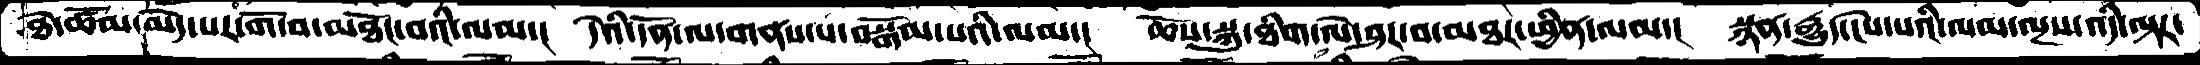ཐེ་ཚོམ་མེད་པར་གོ་བ་མཐོང་བའི་ལམ་།  དེའི་དོན་ལ་གནས་པ་བསྒོམ་པའི་ལམ་།  ཆོས་སྐུ་ཐིག་ལེ་ཤར་བ་མཐར་ཕྱིན་ལམ་།  སྙན་རྒྱུད་ངེས་པའི་ལམ་ལྔས་འདི་ལྟར་
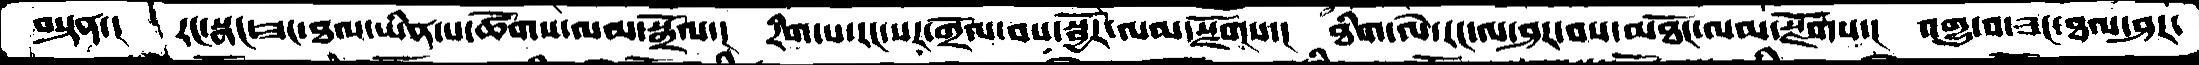བསྟན་།  རང་སྣང་ཟང་ཐལ་ཡིན་པ་ཚོགས་ལམ་སྒྲོལ་།  རིག་པ་རང་སར་གྲོལ་བས་སྦྱོར་ལམ་སྫོགས་།  ཐིག་ལེ་རང་ལ་ཤར་བས་མཐོང་ལམ་སྫོགས་།  འགྱུ་བ་ཟང་ཐལ་ཤར་
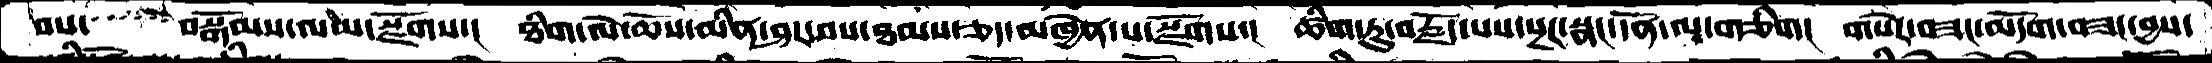བས་    བསྒོམས་ལམ་སྫོགས་།  ཐིག་ལེ་ཆོས་མིན་ཤར་བས་ཐམས་ཅད་མཁྱེན་པ་སྫོགས་།  ཚིག་ཏུ་བརྗོད་པས་སྔཌ་སྣང་དོན་ལ་གཅིག།  གསེར་བཟང་མདོག་བཟང་བྱས་
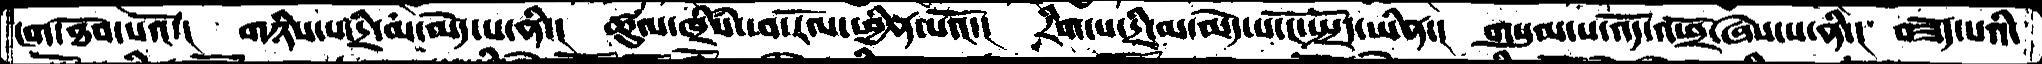ངག་ཐོབ་པའོ་།  གཉིས་པ་དྲི་མ་མེད་པ་ནི་།  ཚུལ་ཁྲིཾས་ཕ་རོལ་ཕྱིན་པའོ་།  རིག་པ་དྲི་མ་མེད་པ་ངོ་སྤྲོད་ཡིན་།  གསུམ་པ་འོད་འཕྲོ་ཞེས་པ་ནི་།  བཟོད་པའི་
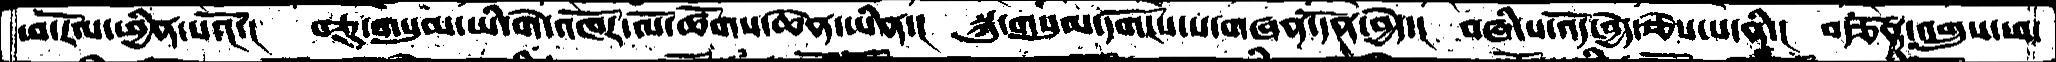ཕ་རོལ་ཕྱིན་པའོ་།  བཅུ་གསུམ་ཡི་གེ་འཁོར་ལོ་ཚོགས་ཆེན་ཡིན་།  སྐུ་གསུམ་དགོངས་པ་གཞན་དོན་བྱེད་།  བཞི་པ་འོད་བྱེད་ཅེས་པ་ནི་།  བརྩོན་འགྲུས་ཕ་
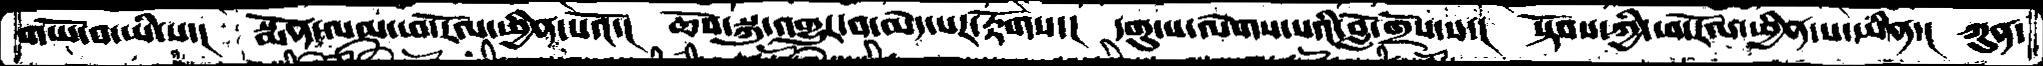གཡོ་བ་ཡི་ས་།  སྨོན་ལམ་ཕ་རོལ་ཕྱིན་པའོ་།  ཆོས་སྐུ་འགྱུར་བ་མེད་པར་རྟོགས་།  དགུ་པ་ལེགས་པའི་བློ་གྲོས་ས་།  སྟོབས་ཀྱི་ཕ་རོལ་ཕྱིན་པ་ཡིན་།  ཀུན་
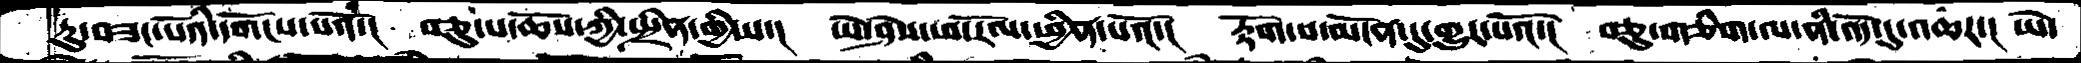ཏུ་བཟང་པོའི་དགོངས་པའོ་།  བཅུ་པ་ཆོས་ཀྱི་སྤྲིན་གྱི་ས་།  ཡེ་ཤེས་ཕ་རོལ་ཕྱིན་པའོ་།  རྟོག་པ་མངོན་དུ་གྱུར་པའོ་།  བཅུ་གཅིག་ལ་ནི་འོད་དུ་འཆར་། ཡེ་
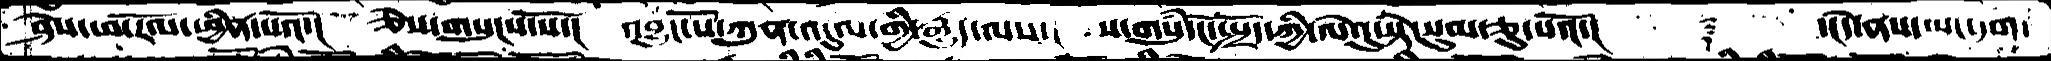ཤེས་ཕ་རོལ་ཕྱིན་པའོ་།  ཅེས་གསུངས་སོ་།  འབྱུང་པོ་ཀུན་འདུལ་གྱི་རྒྱུད་ལས་།  ས་གསུཾ་ངོ་སྤྲོད་ཀྱི་ལེའུ་སྟེ་སུམ་ཅུ་པའོ་།    ༈    ་།དེ་ནས་ཡང་དག་
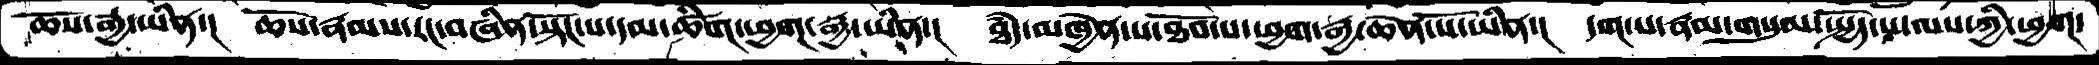ཆོས་རྒྱ་ཡིན་།   ཆོས་རྣམས་རང་བཞིན་སྟོང་པ་དམ་ཚིག་ཕྱག་རྒྱ་ཡིན་།  ཐཾད་མཁྱེན་པ་ཐོབ་པ་ཕྱག་རྒྱ་ཆེན་པོ་ཡིན་།  དག་པ་རྣམ་གསུམ་སྤྱོད་པ་ལས་ཀྱི་ཕྱག་
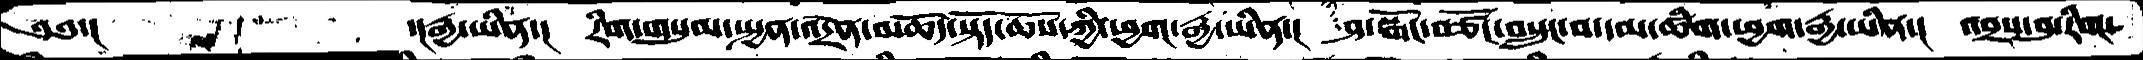༄༅་།        ་།རྒྱ་ཡིན་།    རིག་གསུམ་སྤྱན་འདྲེན་མཆོད་སྟོད་ཆོས་ཀྱི་ཕྱག་རྒྱ་ཡིན་།  ཤ་སྒོང་བཙོང་བསྲུང་བ་དམ་ཚིག་ཕྱག་རྒྱ་ཡིན་།  འབྲས་བུ་རིག་
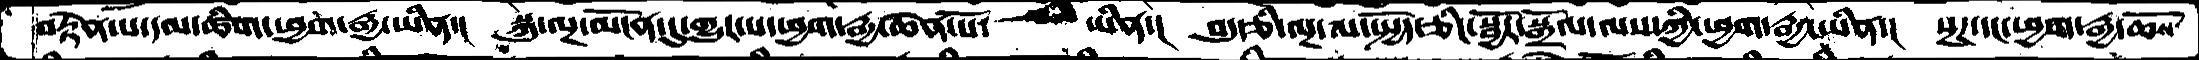བརྟེན་པ་དམ་ཚིག་ཕྱག་རྒྱ་ཡིན་།  སྐུ་ལྔ་མངོན་དུ་གྱུར་པ་ཕྱག་རྒྱ་ཆེན་པོ་     ཡིན་།  བདུརྩི་ལྔ་ལ་སྤྱོད་ཅིང་སྦྱོར་སྒྲོལ་ལས་ཀྱི་ཕྱག་རྒྱ་ཡིན་།  སྔཌ་དང་ཕྱག་རྒྱ་ཆོས་
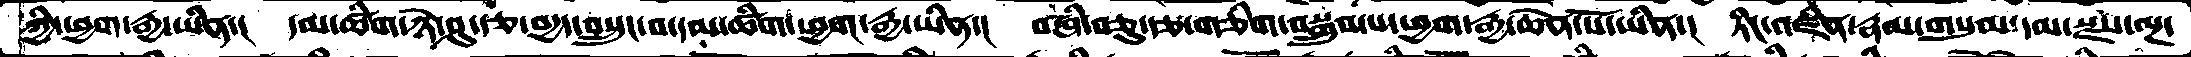ཀྱི་ཕྱག་རྒྱ་ཡིན་།  དམ་ཚིག་ཉེ་ཤུ་རྩ་བདྱད་བསྲུང་བ་དམ་ཚིག་ཕྱག་རྒྱ་ཡིན་།  བཞི་བཅུ་རྩ་གཅིག་བསྒྲུབ་པ་ཕྱག་རྒྱ་ཆེན་པོ་ཡིན་།  ཏིང་འཛིན་རྣམ་གསུམ་དམ་སྫས་ལྔ་
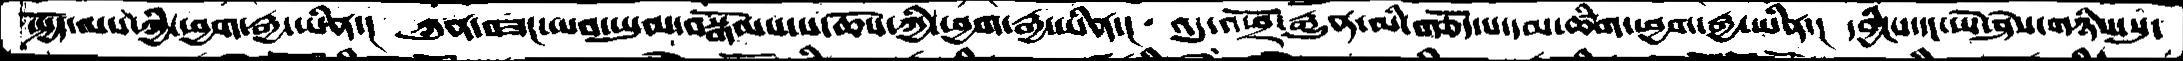སྤྱོད་ལས་ཀྱི་ཕྱག་རྒྱ་ཡིན་།  ཀུན་བཟང་ཡབ་ཡུམ་བསྒོམས་པ་ཆོས་ཀྱི་ཕྱག་རྒྱ་ཡིན་།  འདུ་འཕྲོ་རྒྱུན་མི་གཅོད་པ་དམ་ཚིག་ཕྱག་རྒྱ་ཡིན་།  དབྱིངས་དང་ཡེ་ཤེས་གཉིས་སུ་
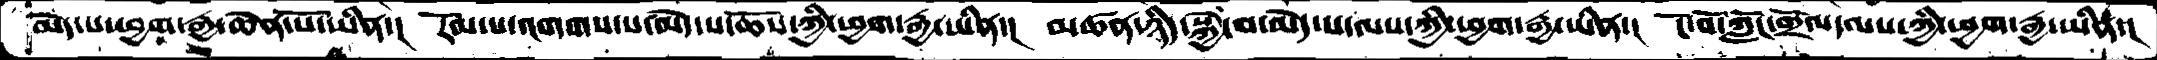མེད་པ་ཕྱག་རྒྱ་ཆེན་པོ་ཡིན་།  རོལ་པ་འགགས་པ་མེད་པ་ཆོས་ཀྱི་ཕྱག་རྒྱ་ཡིན་།  མཚན་ཉིད་སྐྱེ་བ་མེད་པ་ལས་ཀྱི་ཕྱག་རྒྱ་ཡིན་།  ངོ་བོ་ཀློང་གྲོལ་ལས་ཀྱི་ཕྱག་རྒྱ་ཡིན་།
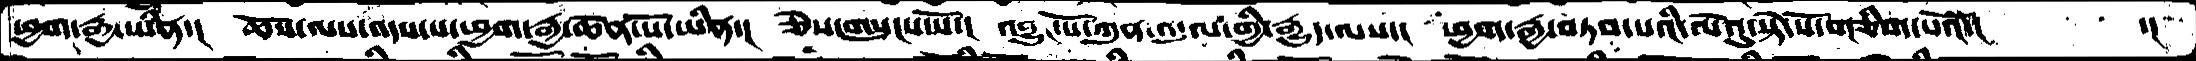ཕྱག་རྒྱ་ཡིན་།  ཆོས་ལས་འདས་པ་ཕྱག་རྒྱ་ཆེན་པོ་ཡིན་།   ཅེས་གསུངས་སོ་།  འབྱུང་པོ་ཀུན་འདུལ་གྱི་རྒྱུད་ལས་།  ཕྱག་རྒྱ་བཏབ་པའི་ལེའུ་སྟེ་སོ་གཅིག་པའོ་།    ་།
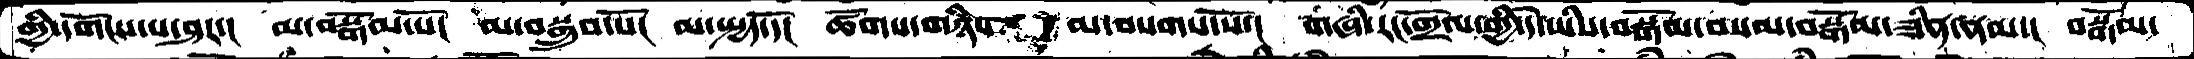གྱི་དགོངས་པ་ཤར་།  མ་བསྒོམ་སོ། མ་བསྒྲུབ་སོ།  མ་སྤྱད་དོ།  ཚོགས་གཉིས་     མ་བསགས་སོ་།  གཞི་རང་གྲོལ་གྱི་དེ་ཡིས་བསྒོམ་བསམ་བསྒོམ་ཟིན་ནམ་།  བསྒོམ་
